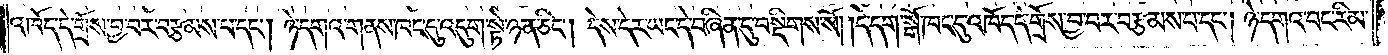འཁོད་དེ་གྲོས་བྱ་བར་བརྩམས་པ་དང༌། ཉེ་དགའ་གནས་ཁང་དུ་འདུག་སྟེ་ཉན་ཅིང༌། དེས་དེར་ཡང་དེ་བཞིན་དུ་བསྡིགས་སོ། །དེ་དག་སྒོ་ཁང་དུ་འཁོད་དེ་གྲོས་བྱ་བར་བརྩམས་པ་དང༌། ཉེ་དགའ་བང་རིམ་
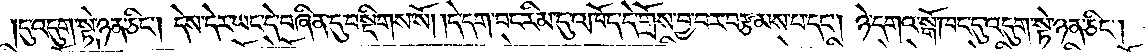དུ་འདུག་སྟེ་ཉན་ཅིང༌། དེས་དེར་ཡང་དེ་བཞིན་དུ་བསྡིགས་སོ། །དེ་དག་བང་རིམ་དུ་འཁོད་དེ་གྲོས་བྱ་བར་བརྩམས་པ་དང༌། ཉེ་དགའ་སྒོ་ཁང་དུ་འདུག་སྟེ་ཉན་ཅིང༌།
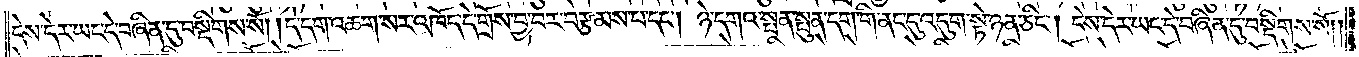དེས་དེར་ཡང་དེ་བཞིན་དུ་བསྡིགས་སོ། །དེ་དག་འཆག་སར་འཁོད་དེ་གྲོས་བྱ་བར་བརྩམས་པ་དང༌། ཉེ་དགའ་སྤན་སྤུན་དག་གིས་ནང་དུ་འདུག་སྟེ་ཉན་ཅིང༌། དེས་དེར་ཡང་དེ་བཞིན་དུ་བསྡིགས་སོ། །
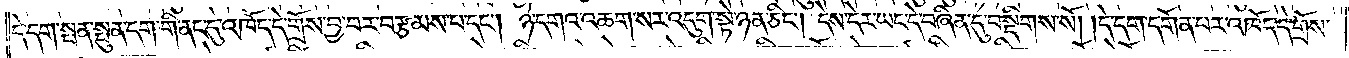དེ་དག་སྤན་སྤུན་དག་གི་ནང་དུ་འཁོད་དེ་གྲོས་བྱ་བར་བརྩམས་པ་དང༌། ཉེ་དགའ་འཆག་སར་འདུག་སྟེ་ཉན་ཅིང༌། དེས་དེར་ཡང་དེ་བཞིན་དུ་བསྡིགས་སོ། །དེ་དག་དགོན་པར་འཁོད་དེ་གྲོས་
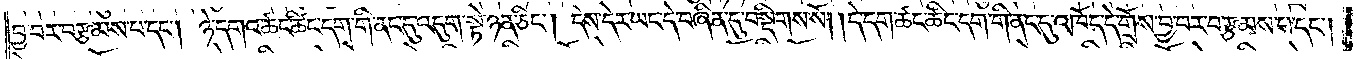བྱ་བར་བརྩམས་པ་དང༌། ཉེ་དགའ་ཚང་ཚིང་དག་གི་ནང་དུ་འདུག་སྟེ་ཉན་ཅིང༌། དེས་དེར་ཡང་དེ་བཞིན་དུ་བསྡིགས་སོ། །དེ་དག་ཚང་ཚིང་དག་གི་ནང་དུ་འཁོད་དེ་གྲོས་བྱ་བར་བརྩམས་པ་དང༌།
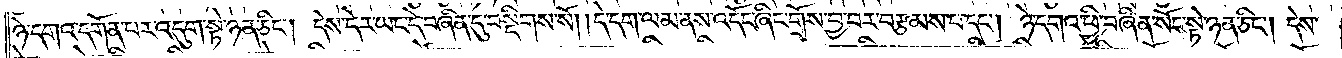ཉེ་དགའ་དགོན་པར་འདུག་སྟེ་ཉན་ཅིང༌། དེས་དེར་ཡང་དེ་བཞིན་དུ་བསྡིགས་སོ། །དེ་དག་ལམ་ནས་འདོང་ཞིང་གྲོས་བྱ་བར་བརྩམས་པ་དང༌། ཉེ་དགའ་ཕྱི་བཞིན་སོང་སྟེ་ཉན་ཅིང༌། དེས་
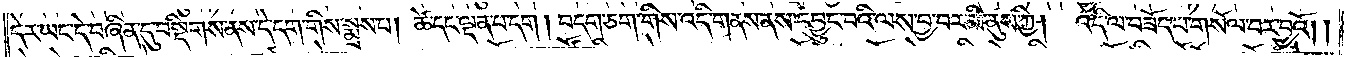དེར་ཡང་དེ་བཞིན་དུ་བསྡིགས་ནས་དེ་དག་གིས་སྨྲས་པ། ཚེ་དང་ལྡན་པ་དག །བདག་ཅག་གིས་འདི་གནས་ནས་དབྱུང་བའི་ལས་བྱ་བར་མི་ནུས་ཀྱི། འདི་ལ་བཟོད་པ་གསོལ་བར་བྱའོ། །
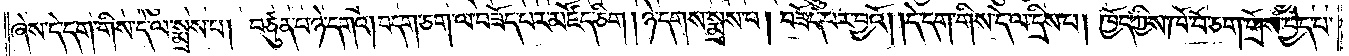ཞེས་དེ་དག་གིས་དེ་ལ་སྨྲས་པ། བཙུན་པ་ཉེ་དགའ། བདག་ཅག་ལ་བཟོད་པར་མཛོད་ཅིག །ཉེ་དགས་སྨྲས་པ། བཟོད་པར་བྱའོ། །དེ་དག་གིས་དེ་ལ་དྲིས་པ། ཁྱོད་ཀྱིས་ཁོ་བོ་ཅག་གྲོས་བྱེད་པ་
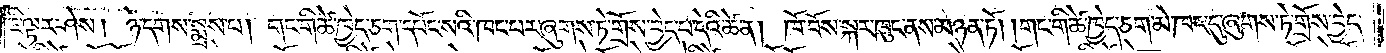ཇི་ལྟར་ཤེས། ཉེ་དགས་སྨྲས་པ། གང་གི་ཚེ་ཁྱེད་ཅག་དཔོང་སའི་ཁང་པར་ཞུགས་ཏེ་གྲོས་བྱེད་པ་དེའི་ཚེ་ན། ཁོ་བོས་སྐར་ཁུང་ནས་མཉན་ཏོ། །གང་གི་ཚེ་ཁྱེད་ཅག་མེ་ཁང་དུ་ཞུགས་ཏེ་གྲོས་བྱེད་
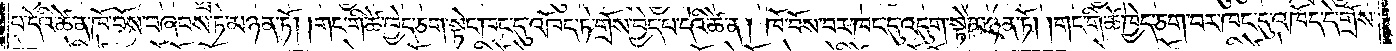པ་དེའི་ཚེ་ན་ཁོ་བོས་བཞབས་ཏེ་མཉན་ཏོ། །གང་གི་ཚེ་ཁྱེད་ཅག་སྟེང་ཁང་དུ་འཁོད་ཏེ་གྲོས་བྱེད་པ་དེའི་ཚེ་ན། ཁོ་བོས་བར་ཁང་དུ་འདུག་སྟེ་མཉན་ཏོ། །གང་གི་ཚེ་ཁྱེད་ཅག་བར་ཁང་དུ་འཁོད་དེ་གྲོས་
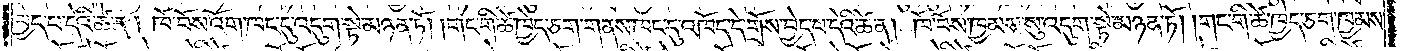བྱེད་པ་དེའི་ཚེ་ན། ཁོ་བོས་འོག་ཁང་དུ་འདུག་སྟེ་མཉན་ཏོ། །གང་གི་ཚེ་ཁྱེད་ཅག་གནས་ཁང་དུ་འཁོད་དེ་གྲོས་བྱེད་པ་དེའི་ཚེ་ན། ཁོ་བོས་ཁྱམས་སུ་འདུག་སྟེ་མཉན་ཏོ། །གང་གི་ཚེ་ཁྱེད་ཅག་ཁྱམས་
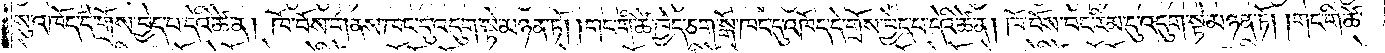སུ་འཁོད་དེ་གྲོས་བྱེད་པ་དེའི་ཚེ་ན། ཁོ་བོས་གནས་ཁང་དུ་འདུག་སྟེ་མཉན་ཏོ། །གང་གི་ཚེ་ཁྱེད་ཅག་སྒོ་ཁང་དུ་འཁོད་དེ་གྲོས་བྱེད་པ་དེའི་ཚེ་ན། ཁོ་བོས་བང་རིམ་དུ་འདུག་སྟེ་མཉན་ཏོ། །གང་གི་ཚེ་
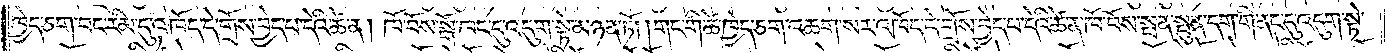ཁྱེད་ཅག་བང་རིམ་དུ་འཁོད་དེ་གྲོས་བྱེད་པ་དེའི་ཚེ་ན། ཁོ་བོས་སྒོ་ཁང་དུ་འདུག་སྟེ་མཉན་ཏོ། །གང་གི་ཚེ་ཁྱེད་ཅག་འཆག་སར་འཁོད་དེ་གྲོས་བྱེད་པ་དེའི་ཚེ་ན་ཁོ་བོས་སྤན་སྤུན་དག་གི་ནང་དུ་འདུག་སྟེ་
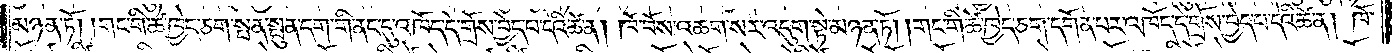མཉན་ཏོ། །གང་གི་ཚེ་ཁྱེད་ཅག་སྤན་སྤུན་དག་གི་ནང་དུ་འཁོད་དེ་གྲོས་བྱེད་པ་དེའི་ཚེ་ན། ཁོ་བོས་འཆག་སར་འདུག་སྟེ་མཉན་ཏོ། །གང་ཏི་ཚེ་ཁྱེད་ཅག་དགོན་པར་འཁོད་དེ་གྲོས་བྱེད་པ་དེའི་ཚེ་ན། ཁོ་
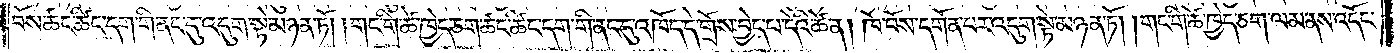བོས་ཚང་ཚིང་དག་གི་ནང་དུ་འདུག་སྟེ་མཉན་ཏོ། །གང་གི་ཚེ་ཁྱེད་ཅག་ཚང་ཚིང་དག་གི་ནང་དུ་འཁོད་དེ་གྲོས་བྱེད་པ་དེའི་ཚེ་ན། ཁོ་བོས་དགོན་པར་འདུག་སྟེ་མཉན་ཏོ། །གང་གི་ཚེ་ཁྱེད་ཅག་ལམ་ནས་འདོང་
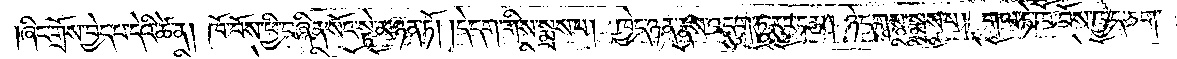ཞིང་གྲོས་བྱེད་པ་དེའི་ཚེ་ན། ཁོ་བོས་ཕྱི་བཞིན་སོང་སྟེ་མཉན་ཏོ། །དེ་དག་གིས་སྨྲས་པ། ཁྱེད་ཉན་རྣས་འདུག་ཏུ་རུང་ངམ། ཉེ་དགས་སྨྲས་པ། གལ་ཏེ་ཁོ་བོས་ཁྱེད་ཅག་
